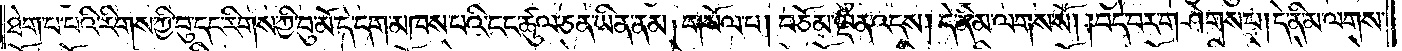ཐེག་པ་པའི་རིགས་ཀྱི་བུ་དང་རིགས་ཀྱི་བུ་མོ་དེ་དག་མཁས་པའི་ངང་ཚུལ་ཅན་ཡིན་ནམ། གསོལ་པ། བཅོམ་ལྡན་འདས། དེ་ནི་མ་ལགས་སོ། །བདེ་བར་གཤེགས་པ། དེ་ནི་མ་ལགས་
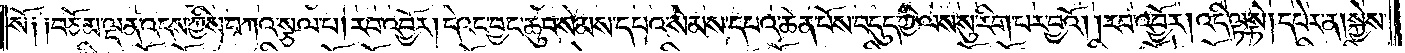སོ༑ ༑བཅོམ་ལྡན་འདས་ཀྱིས་བཀའ་སྩལ་པ། རབ་འབྱོར། དེའང་བྱང་ཆུབ་སེམས་དཔའ་སེམས་དཔའ་ཆེན་པོས་བདུད་ཀྱི་ལས་སུ་རིག་པར་བྱའོ། །རབ་འབྱོར། འདི་ལྟ་སྟེ། དཔེར་ན། སྐྱེས་
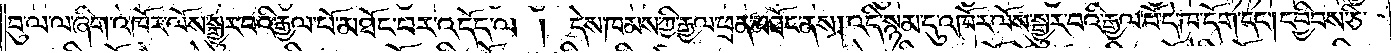བུ་ལ་ལ་ཞིག་འཁོར་ལོས་སྒྱུར་བའི་རྒྱལ་པོ་མཐོང་བར་འདོད་ལ། དེས་ཁམས་ཀྱི་རྒྱལ་ཕྲན་མཐོང་ནས། འདི་སྙམ་དུ་འཁོར་ལོས་སྒྱུར་བའི་རྒྱལ་པོ་དེ་ཁ་དོག་དང༌། དབྱིབས་ཅི་
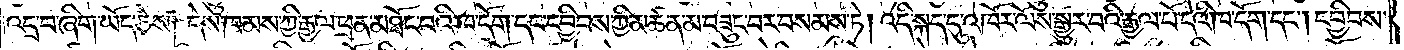འདྲ་བ་ཞིག་ཡོད་ཅེས། དེས་ཁམས་ཀྱི་རྒྱལ་ཕྲན་མཐོང་བའི་ཁ་དོག་དང་དབྱིབས་ཀྱི་མཚན་མ་བཟུང་པར་བསམས་ཏེ། འདི་སྐད་དུ་འཁོར་ལོས་སྒྱུར་བའི་རྒྱལ་པོ་དེའི་ཁ་དོག་དང༌། དབྱིབས་
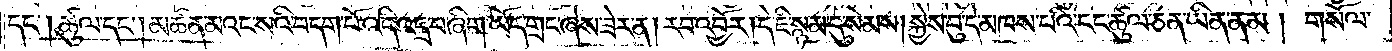དང༌། ཚུལ་དང༌། མཚན་མའང་སའི་བདག་པོ་འདི་འདྲ་བ་ཞིག་ཡོད་གྲང་ཞེས་ཟེར་ན། རབ་འབྱོར། དེ་ཇི་སྙམ་དུ་སེམས། སྐྱེས་བུ་དེ་མཁས་པའི་ངང་ཚུལ་ཅན་ཡིན་ནམ། གསོལ་
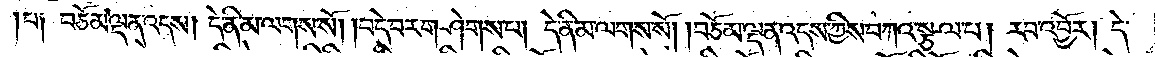པ༑ བཅོམ་ལྡན་འདས། དེ་ནི་མ་ལགས་སོ། །བདེ་བར་གཤེགས་པ། དེ་ནི་མ་ལགས་སོ། །བཅོམ་ལྡན་འདས་ཀྱིས་བཀའ་སྩལ་པ། རབ་འབྱོར། དེ་
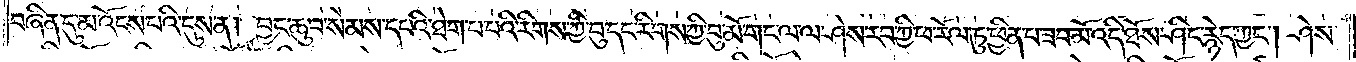བཞིན་དུ་མ་འོངས་པའི་དུས་ན། བྱང་ཆུབ་སེམས་དཔའི་ཐེག་པ་པོའི་རིགས་ཀྱི་བུ་དང་རིགས་ཀྱི་བུ་མོ་གང་ལ་ལ་ཤེས་རབ་ཀྱི་ཕ་རོལ་ཏུ་ཕྱིན་པ་ཟབ་མོ་འདི་ཐོས་ཤིང་རྙེད་ཀྱང༌། ཤེས་
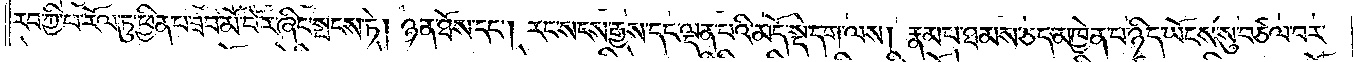རབ་ཀྱི་ཕ་རོལ་ཏུ་ཕྱིན་པ་ཟབ་མོ་བོར་ཞིང་སྤངས་ཏེ། ཉན་ཐོས་དང༌། རང་སངས་རྒྱས་དང་ལྡན་པའི་མདོ་སྡེ་དྲག་པ་ལས། རྣམ་པ་ཐམས་ཅད་མཁྱེན་པ་ཉིད་ཡོངས་སུ་བཙལ་བར་
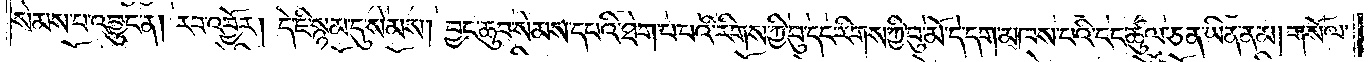སེམས་པ་འབྱུང་ན། རབ་འབྱོར། དེ་ཇི་སྙམ་དུ་སེམས། བྱང་ཆུབ་སེམས་དཔའི་ཐེག་པ་པའི་རིགས་ཀྱི་བུ་དང་རིགས་ཀྱི་བུ་མོ་དེ་དག་མཁས་པའི་ངང་ཚུལ་ཅན་ཡིན་ནམ། གསོལ་
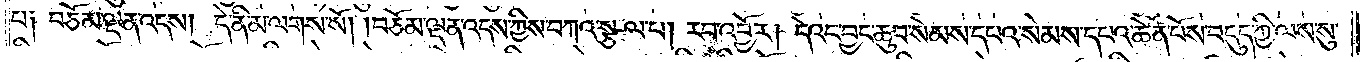པ༑ བཅོམ་ལྡན་འདས། དེ་ནི་མ་ལགས་སོ། །བཅོམ་ལྡན་འདས་ཀྱིས་བཀའ་སྩལ་པ། རབ་འབྱོར། དེའང་བྱང་ཆུབ་སེམས་དཔའ་སེམས་དཔའ་ཆེན་པོས་བདུད་ཀྱི་ལས་སུ་
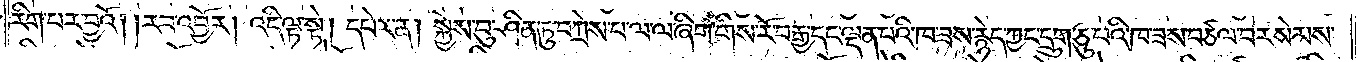རིག་པར་བྱའོ། །རབ་འབྱོར། འདི་ལྟ་སྟེ། དཔེར་ན། སྐྱེས་བུ་ཤིན་ཏུ་བཀྲེས་པ་ལ་ལ་ཞིག་གིས་རོ་བརྒྱ་དང་ལྡན་པའི་ཁ་ཟས་རྙེད་ཀྱང་དྲུག་ཅུ་པའི་ཁ་ཟས་བཙལ་བར་སེམས་
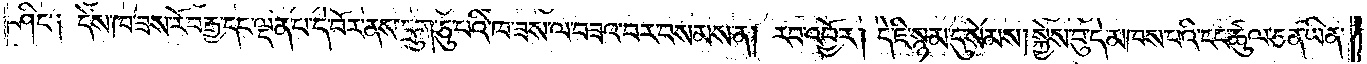ཤིང་༑ དེས་ཁ་ཟས་རོ་བརྒྱ་དང་ལྡན་པ་དེ་བོར་ནས་དྲུག་ཅུ་པའི་ཁ་ཟས་ལ་བཟའ་བར་བསམས་ན། རབ་འབྱོར། དེ་ཇི་སྙམ་དུ་སེམས། སྐྱེས་བུ་དེ་མཁས་པའི་ངང་ཚུལ་ཅན་ཡིན་
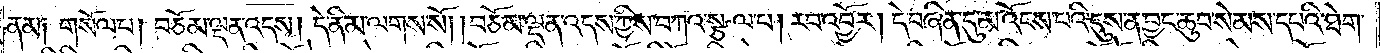ནམ། གསོལ་པ། བཅོམ་ལྡན་འདས། དེ་ནི་མི་ལགས་སོ། །བཅོམ་ལྡན་འདས་ཀྱིས་བཀའ་སྩལ་པ། རབ་འབྱོར། དེ་བཞིན་དུ་མ་འོངས་པའི་དུས་ན་བྱང་ཆུབ་སེམས་དཔའི་ཐེག་
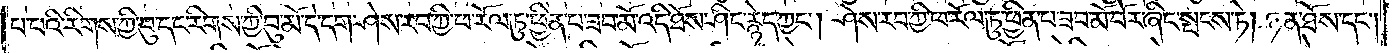པ་པའི་རིགས་ཀྱི་བུ་དང་རིགས་ཀྱི་བུ་མོ་དེ་དག་ཤེས་རབ་ཀྱི་ཕ་རོལ་ཏུ་ཕྱིན་པ་ཟབ་མོ་འདི་ཐོས་ཤིང་རྙེད་ཀྱང༌། ཤེས་རབ་ཀྱི་ཕ་རོལ་ཏུ་ཕྱིན་པ་ཟབ་མོ་བོར་ཞིང་སྤངས་ཏེ། ཉན་ཐོས་དང༌།
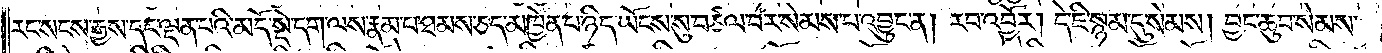རང་སངས་རྒྱས་དང་ལྡན་པའི་མདོ་སྡེ་དག་ལས་རྣམ་པ་ཐམས་ཅད་མཁྱེན་པ་ཉིད་ཡོངས་སུ་བཙལ་བར་སེམས་པ་འབྱུང་ན། རབ་འབྱོར། དེ་ཇི་སྙམ་དུ་སེམས། བྱང་ཆུབ་སེམས་
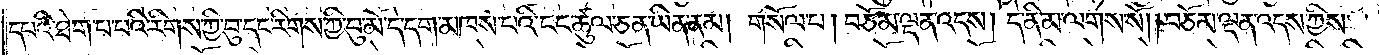དཔའི་ཐེག་པ་པའི་རིགས་ཀྱི་བུ་དང་རིགས་ཀྱི་བུ་མོ་དེ་དག་མཁས་པའི་ངང་ཚུལ་ཅན་ཡིན་ནམ། གསོལ་པ། བཅོམ་ལྡན་འདས། དེ་ནི་མ་ལགས་སོ། །བཅོམ་ལྡན་འདས་ཀྱིས་
